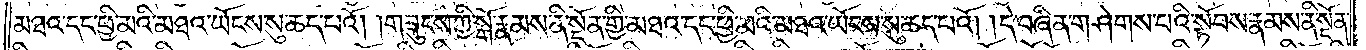མཐའ་དང་ཕྱི་མའི་མཐའ་ཡོངས་སུ་ཆད་པའོ། །གཟུངས་ཀྱི་སྒོ་རྣམས་ནི་སྔོན་གྱི་མཐའ་དང་ཕྱི་མའི་མཐའ་ཡོངས་སུ་ཆད་པའོ། །དེ་བཞིན་གཤེགས་པའི་སྟོབས་རྣམས་ནི་སྔོན་
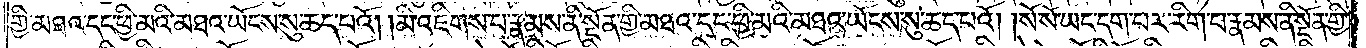གྱི་མཐའ་དང་ཕྱི་མའི་མཐའ་ཡོངས་སུ་ཆད་པའོ། །མི་འཇིགས་པ་རྣམས་ནི་སྔོན་གྱི་མཐའ་དང་ཕྱི་མའི་མཐའ་ཡོངས་སུ་ཆད་པའོ། །སོ་སོ་ཡང་དག་པར་རིག་པ་རྣམས་ནི་སྔོན་གྱི་
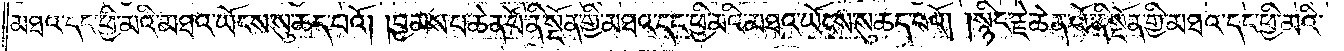མཐའ་དང་ཕྱི་མའི་མཐའ་ཡོངས་སུ་ཆད་པའོ། །བྱམས་པ་ཆེན་པོ་ནི་སྔོན་གྱི་མཐའ་དང་ཕྱི་མའི་མཐའ་ཡོངས་སུ་ཆད་པའོ། །སྙིང་རྗེ་ཆེན་པོ་ནི་སྔོན་གྱི་མཐའ་དང་ཕྱི་མའི་
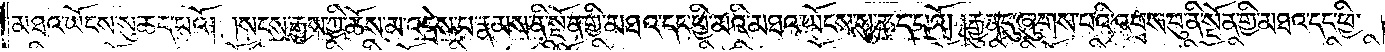མཐའ་ཡོངས་སུ་ཆད་པའོ། །སངས་རྒྱས་ཀྱི་ཆོས་མ་འདྲེས་པ་རྣམས་ནི་སྔོན་གྱི་མཐའ་དང་ཕྱི་མའི་མཐའ་ཡོངས་སུ་ཆད་པའོ། །རྒྱུན་དུ་ཞུགས་པའི་འབྲས་བུ་ནི་སྔོན་གྱི་མཐའ་དང་ཕྱི་
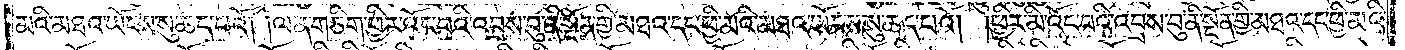མའི་མཐའ་ཡོངས་སུ་ཆད་པའོ། །ལན་གཅིག་ཕྱིར་འོང་བའི་འབྲས་བུ་ནི་སྔོན་གྱི་མཐའ་དང་ཕྱི་མའི་མཐའ་ཡོངས་སུ་ཆད་པའོ། །ཕྱིར་མི་འོང་བའི་འབྲས་བུ་ནི་སྔོན་གྱི་མཐའ་དང་ཕྱི་མའི་
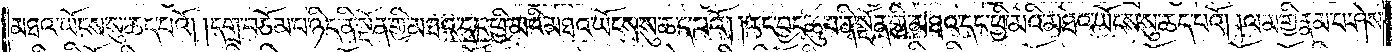མཐའ་ཡོངས་སུ་ཆད་པའོ། །དགྲ་བཅོམ་པ་ཉིད་ནི་སྔོན་གྱི་མཐའ་དང་ཕྱི་མའི་མཐའ་ཡོངས་སུ་ཆད་པའོ། །རང་བྱང་ཆུབ་ནི་སྔོན་གྱི་མཐའ་དང་ཕྱི་མའི་མཐའ་ཡོངས་སུ་ཆད་པའོ། །ལམ་གྱི་རྣམ་པར་ཤེས་
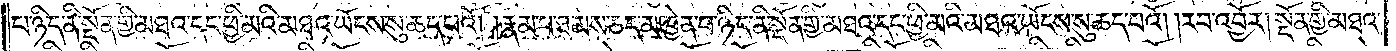པ་ཉིད་ནི་སྔོན་གྱི་མཐའ་དང་ཕྱི་མའི་མཐའ་ཡོངས་སུ་ཆད་པའོ། །རྣམ་པ་ཐམས་ཅད་མཁྱེན་པ་ཉིད་ནི་སྔོན་གྱི་མཐའ་དང་ཕྱི་མའི་མཐའ་ཡོངས་སུ་ཆད་པའོ། །རབ་འབྱོར། སྔོན་གྱི་མཐའ་
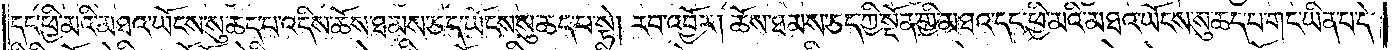དང་ཕྱི་མའི་མཐའ་ཡོངས་སུ་ཆད་པ་འདིས་ཆོས་ཐམས་ཅད་ཡོངས་སུ་ཆད་པ་སྟེ། རབ་འབྱོར། ཆོས་ཐམས་ཅད་ཀྱི་སྔོན་གྱི་མཐའ་དང་ཕྱི་མའི་མཐའ་ཡོངས་སུ་ཆད་པ་གང་ཡིན་པ་དེ་
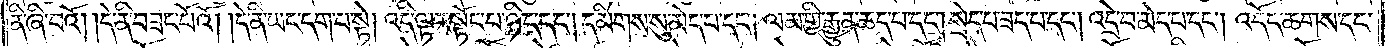ནི་ཞི་བའོ༎ དེ་ནི་བཟང་པོའོ། །དེ་ནི་ཡང་དག་པ་སྟེ། འདི་ལྟར་སྟོང་པ་ཉིད་དང༌། དམིགས་སུ་མེད་པ་དང༌། ལམ་གྱི་རྒྱུན་ཆད་པ་དང༌། སྲེད་པ་ཟད་པ་དང༌། འདྲེ་བ་མེད་པ་དང༌། འདོད་ཆགས་དང་
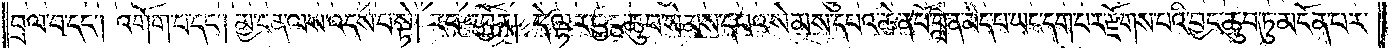བྲལ་བ་དང༌། འགོག་པ་དང༌། མྱ་ངན་ལས་འདས་པ་སྟེ། རབ་འབྱོར། དེ་ལྟར་བྱང་ཆུབ་སེམས་དཔའ་སེམས་དཔའ་ཆེན་པོ་བླ་ན་མེད་པ་ཡང་དག་པར་རྫོགས་པའི་བྱང་ཆུབ་ཏུ་མངོན་པར་
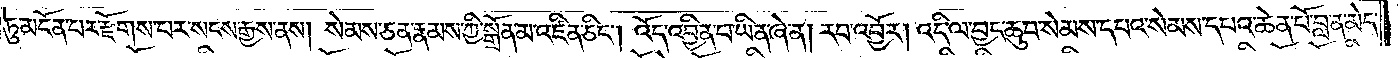ཏུ་མངོན་པར་རྫོགས་པར་སངས་རྒྱས་ནས། སེམས་ཅན་རྣམས་ཀྱི་སྒྲོན་མ་འཛིན་ཅིང༌། འོད་འབྱིན་པ་ཡིན་ཞེ་ན། རབ་འབྱོར། འདི་ལ་བྱང་ཆུབ་སེམས་དཔའ་སེམས་དཔའ་ཆེན་པོ་བླ་ན་མེད་
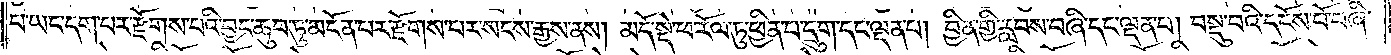པ་ཡང་དག་པར་རྫོགས་པའི་བྱང་ཆུབ་ཏུ་མངོན་པར་རྫོགས་པར་སངས་རྒྱས་ནས། མདོ་སྡེ་ཕ་རོལ་ཏུ་ཕྱིན་པ་དྲུག་དང་ལྡན་པ། བྱིན་གྱི་རླབས་བཞི་དང་ལྡན་པ། བསྡུ་བའི་དངོས་པོ་བཞི་
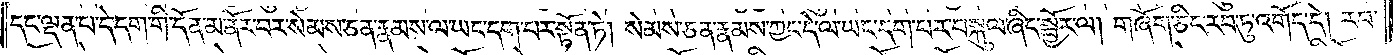དང་ལྡན་པ་དེ་དག་གི་དོན་མ་ནོར་བར་སེམས་ཅན་རྣམས་ལ་ཡང་དག་པར་སྟོན་ཏེ། སེམས་ཅན་རྣམས་ཀྱང་དེ་ལ་ཡང་དག་པར་བསྐུལ་ཞིང་སྦྱོར་ལ། གཞོག་ཅིང་རབ་ཏུ་འགོད་དེ། རབ་
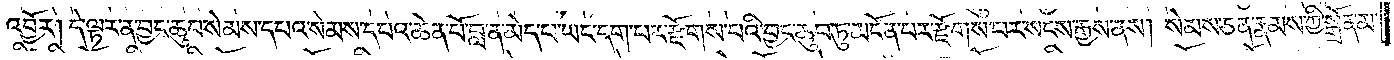འབྱོར། དེ་ལྟར་ན་བྱང་ཆུབ་སེམས་དཔའ་སེམས་དཔའ་ཆེན་པོ་བླ་ན་མེད་པ་ཡང་དག་པར་རྫོགས་པའི་བྱང་ཆུབ་ཏུ་མངོན་པར་རྫོགས་པར་སངས་རྒྱས་ནས། སེམས་ཅན་རྣམས་ཀྱི་སྒྲོན་མ་
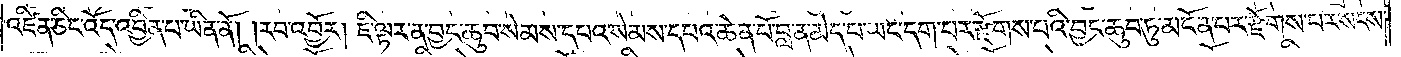འཛིན་ཅིང་འོད་འབྱིན་པ་ཡིན་ནོ། །རབ་འབྱོར། ཇི་ལྟར་ན་བྱང་ཆུབ་སེམས་དཔའ་སེམས་དཔའ་ཆེན་པོ་བླ་ན་མེད་པ་ཡང་དག་པར་རྫོགས་པའི་བྱང་ཆུབ་ཏུ་མངོན་པར་རྫོགས་པར་སངས་
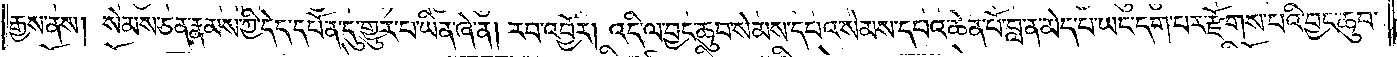རྒྱས་ནས། སེམས་ཅན་རྣམས་ཀྱི་དེད་དཔོན་དུ་གྱུར་པ་ཡིན་ཞེ་ན། རབ་འབྱོར། འདི་ལ་བྱང་ཆུབ་སེམས་དཔའ་སེམས་དཔའ་ཆེན་པོ་བླ་ན་མེད་པ་ཡང་དག་པར་རྫོགས་པའི་བྱང་ཆུབ་
